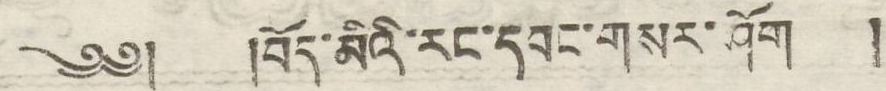༄༅། །བོད་མིའི་རང་དབང་གསར་ཤོག །
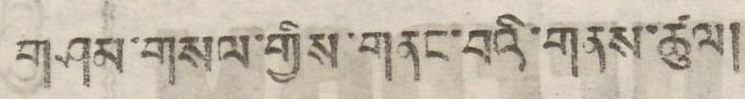གཤམ་གསལ་གྱིས་གནང་བའི་གནས་ཚུལ།
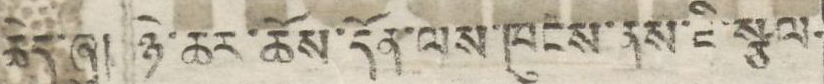ཆེད་ཞུ། ཉེ་ཆར་ཆོས་དོན་ལས་ཁུངས་ན་སྗི་སྩལ་
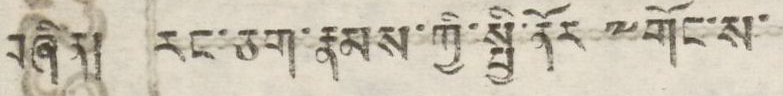བཞིན། རང་ཅག་རྣམས་ཀྱི་སྤྱི་ནོར༸གོང་ས་
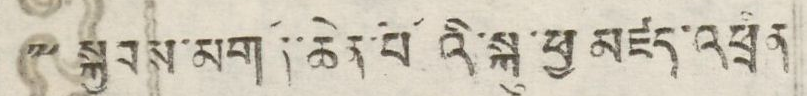༸སྐྱབས་མགོན་ཆེན་པོའི་སྐུ་ཕྱ་མཛད་འཕྲིན
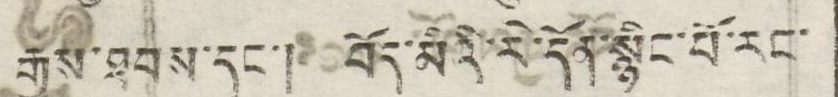རྒྱས་ཐབས་དང་། བོད་མིའི་རེ་དོན་སྙིང་པོ་རང་
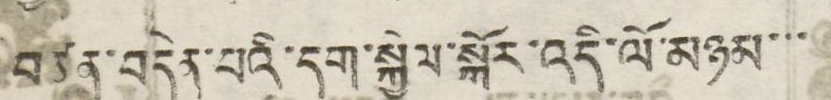བཙན་བདེན་པའི་དག་སྐྱེལ་སྐོར་འདི་ལོ་མཉམ་་་
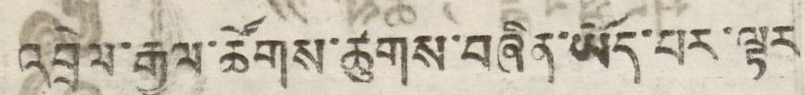འབྲེལ་རྒྱལ་ཚོགས་ཚུགས་བཞིན་ཡོད་པར་ལྟར
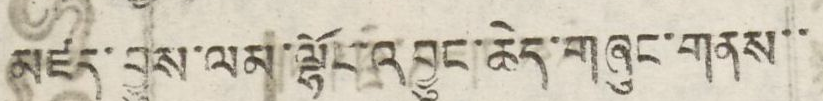མཛད་བྱུས་ལམ་ལྷོང་འབྱུང་ཆེད་གཞུང་གནས་་
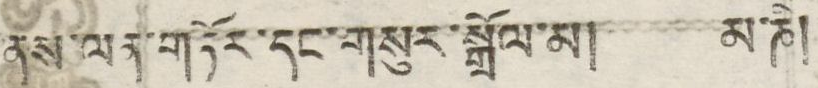ནས་ལན་གཏིར་དང་གསུར་སྒྲོལ་མ། མ་ཎི།
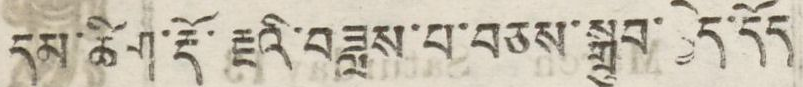དམ་ཚིག་རྡོ་རྗའི་བཟླས་པ་བཅས་སྒྲུབ་བྱེད་དོད
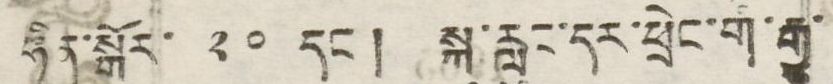ཧིན་སྒོར་ ༢༠ དང་། སྐུ་རླུང་དར་ཕྲེང་གི་རྒྱུ་
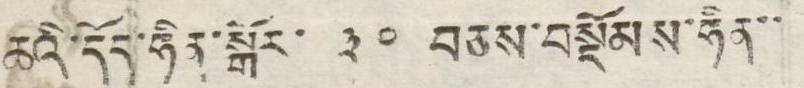ཆའི་དོད་ཧིན་སྒོར་ ༣༠ བཅས་བསྡོམས་ཧིན་་
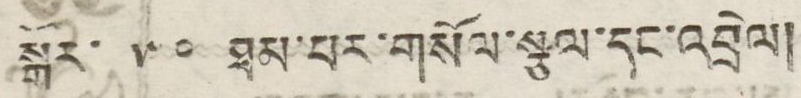སྒོར་ ༥༠ ཐམ་པར་གསོལ་སྩལ་དང་འབྲེལ།
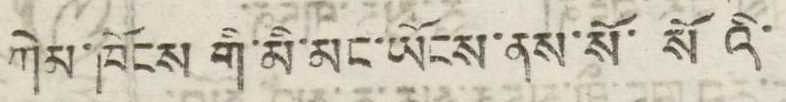ཀེམ་ཁོངས གི་མི་མང་ཡོངས་ནས་སོ་ སོ འི་
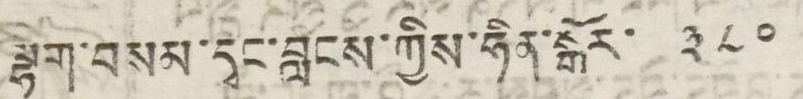ལྷག་བསམ་དྭང་བླངས་ཀྱིས་ཧོན་སྒོར་ ༣༨༠
